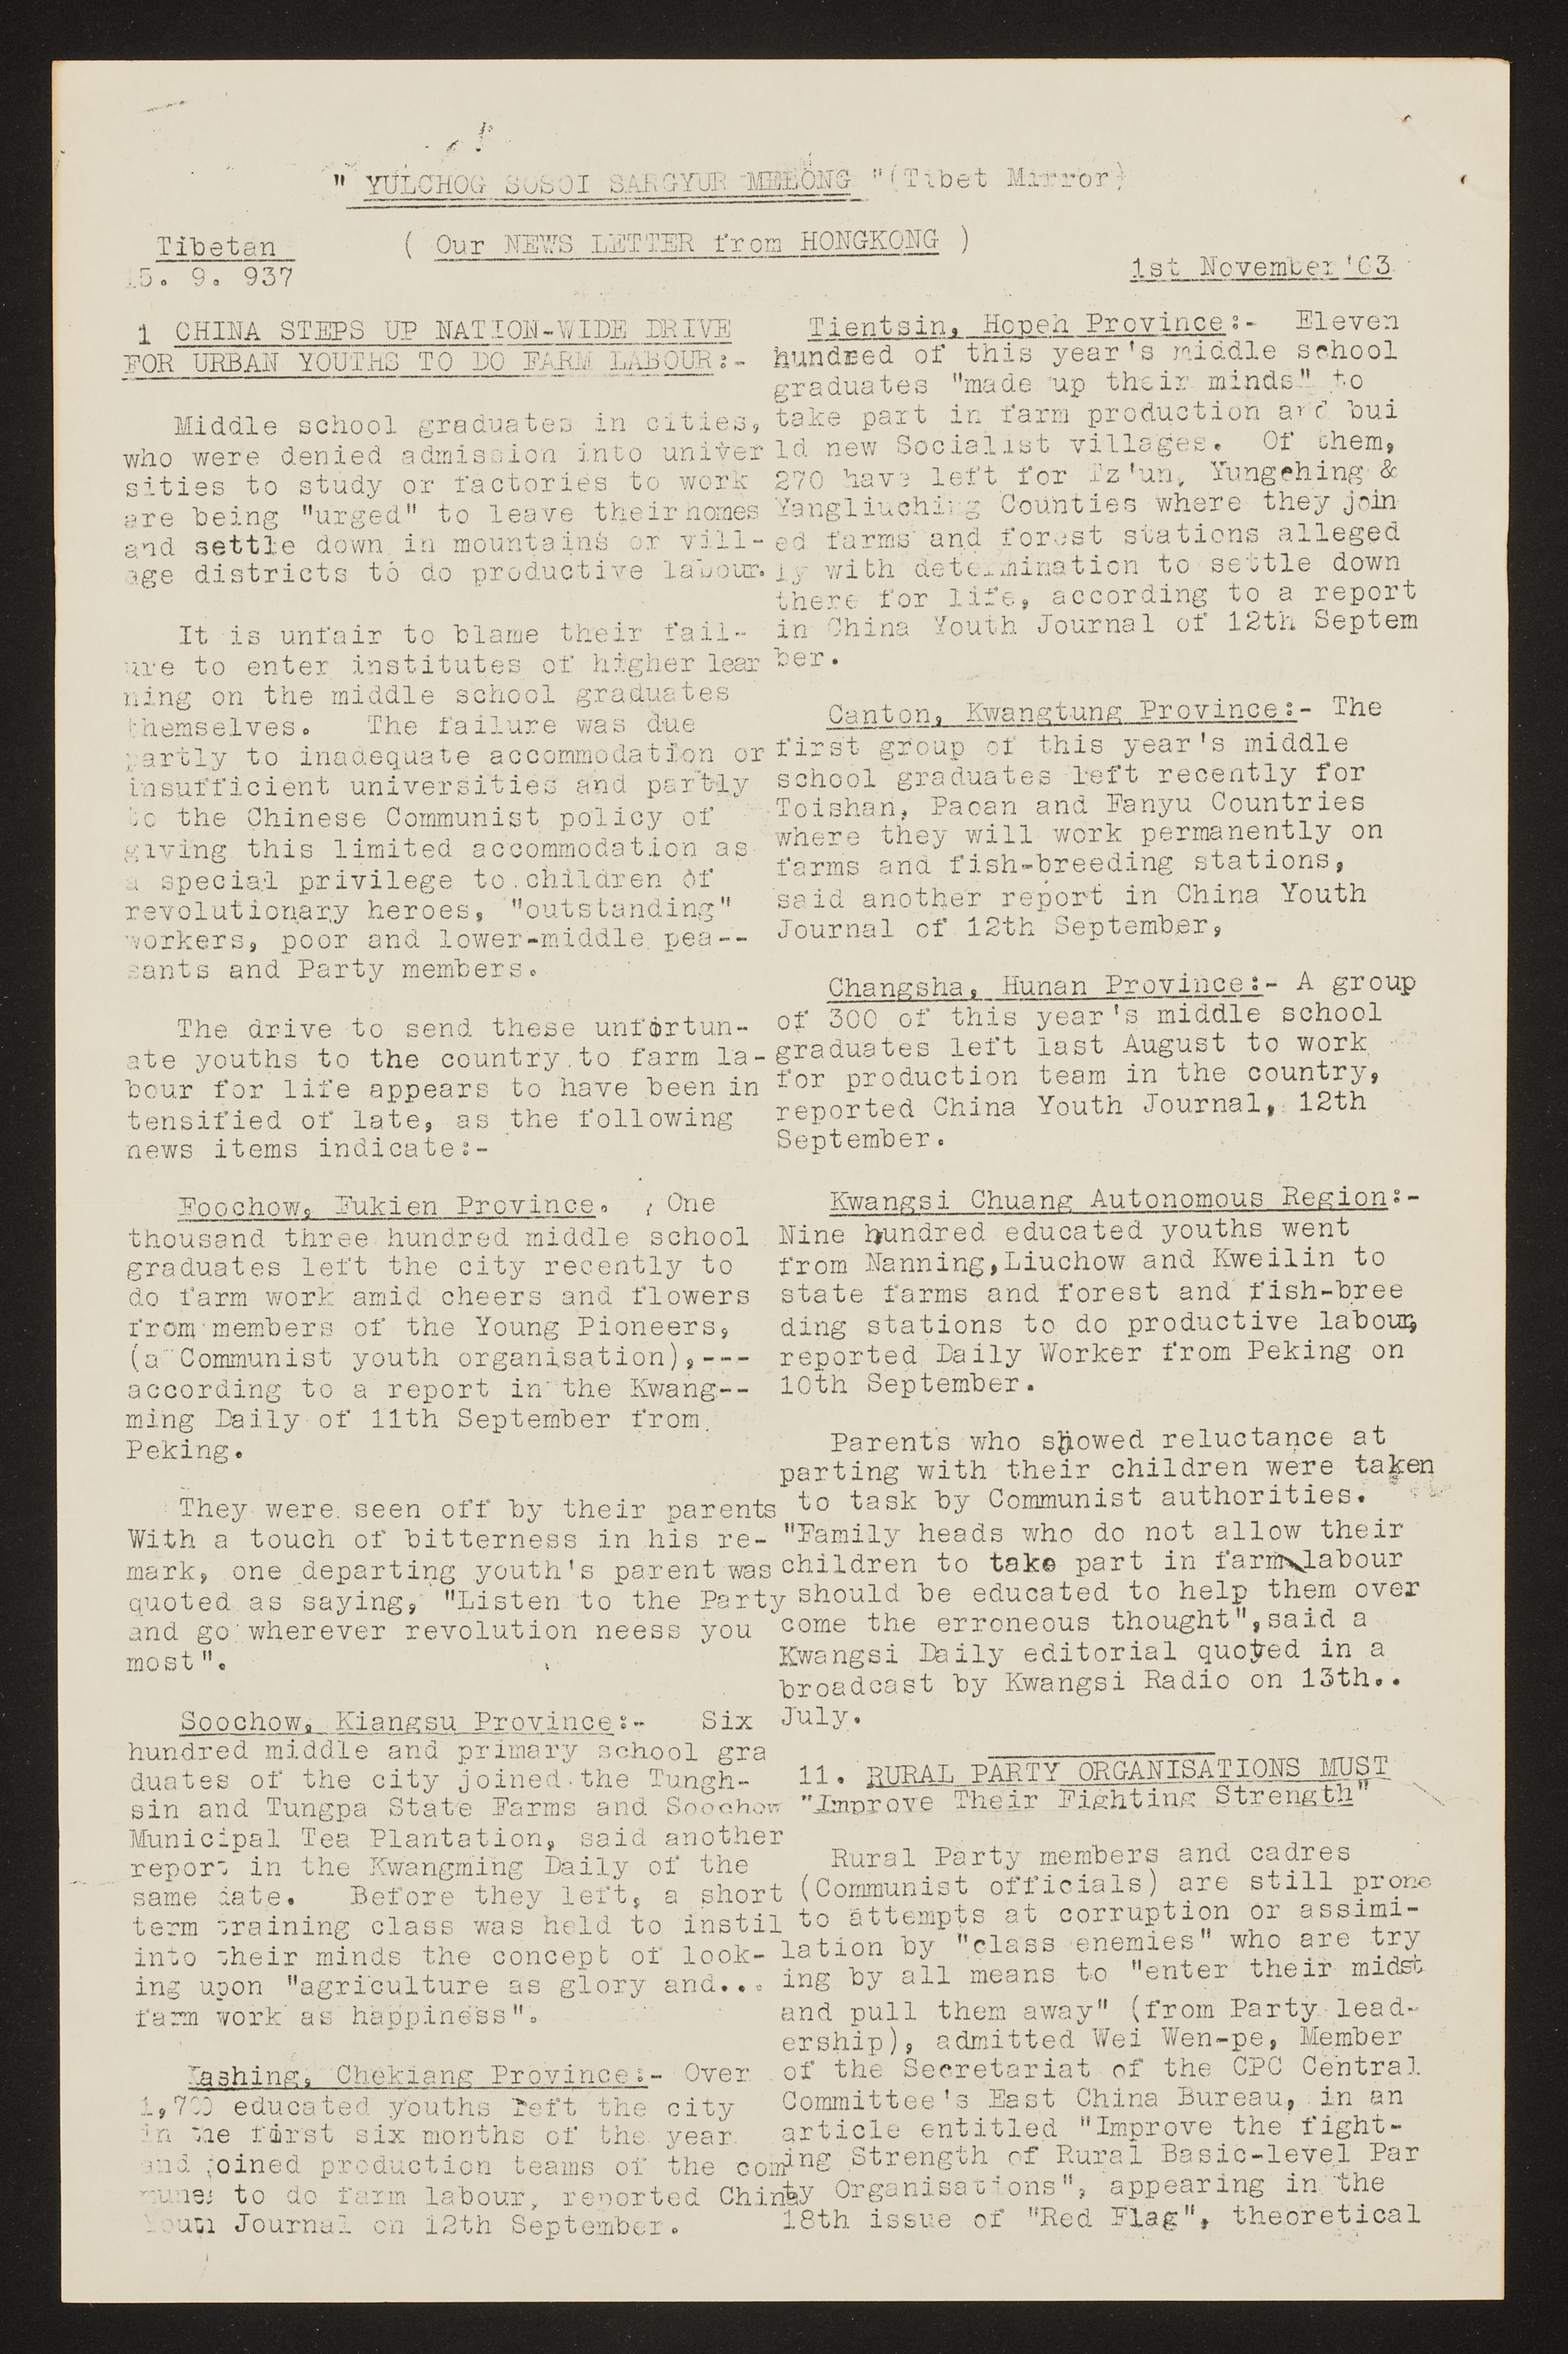" YULCHOG SOSOI SARGYUR MELONG " (Tibet Mirror)
Our NEWS LETTER from HONGKONG)
Tibetan
5.9. 937
1st November '63
1 CHINA STEPS UP NATION-WIDE DRIVE
FOR URBAN YOUTHS TO DO FARM LABOUR: -
Middle school graduates in cities,
who were denied admission into univer
sities to study or factories to work
are being "urged" to leave their homes
and settle down in mountains or vill-
age districts to do productive labour.
It is unfair to blame their fail-
we to enter institutes of higher lear
ning on the middle school graduates
themselves. The failure was due
partly to inadequate accommodation or
insufficient universities and partly
to the Chinese Communist policy of
giving this limited accommodation as
a special privilege to children of
revolutionary heroes, "outstanding"
workers, poor and lower middle pea--
sants and Party members.
The drive to send these unfortun-
ate youths to the country to farm la-
bour for life appears to have been in
tensified of late, as the following
news items indicate:-
Foochow, Fukien Province. One
thousand three hundred middle school
graduates left the city recently to
do farm work amid cheers and flowers
from members of the Young Pioneers,
(a Communist youth organisation), ---
according to a report in the Kwang--
ming Daily of 11th September from
Peking.
They were seen off by their parents
With a touch of bitterness in his re-
mark, one departing youth's parent was
quoted as saying, "Listen to the Party
and go wherever revolution neess you
most".
Soochow, Kiangsu Province:- Six
hundred middle and primary school gra
duates of the city joined the Tungh-
sin and Tungpa State Farms and Soochow
Municipal Tea Plantation, said another
report in the Kwangming Daily of the
same date. Before they left, a short
term training class was held to instil
into their minds the concept of look-
ing upon "agriculture as glory and...
farm work as happiness".
Xashing, Chekiang Province:- over
1,700 educated youths left the city
in the first six months of the year
and joined production teams of the com
munes to do farm labour, reported China
Youth Journal on 12th September.
Tientsin, Hopeh Province:- Eleven
hundred of this year's middle school
graduates "made up their minds" to
take part in farm production and bui
ld new Socialist villages. Of them,
270 have left for Tz'un, Yungching &
Yangliuching Counties where they join
ed farms and forest stations alleged
ly with determination to settle down
there for life, according to a report
in China Youth Journal of 12 Septem
ber.
Canton, Kwangtung Province: The
first group of this year's middle
school graduates left recently for
Toishan, Paoan and Fanyu Countries
where they will work permanently on
farms and fish-breeding stations,
said another report in China Youth
Journal of 12th September,
Changsha, Hunan Province - A group
of 300 of this years middle school
graduates left last August to work
for production team in the country,
reported China Youth Journal, 12th
September.
Kwangsi Chuang Autonomous Region:-
Nine hundred educated youths went
from Nanning, Liuchow and Kweilin to
state farms and forest and fish-bree
ding stations to do productive labour,
reported Daily Worker from Peking on
10th September.
Parents who showed reluctance at
parting with their children were taken
to task by Communist authorities.
"Family heads who do not allow their
children to take part in farm labour
should be educated to help them over
come the erroneous thought", said a
Kwangsi Daily editorial quoted in a
broadcast by Kwangs Radio on 13th..
July.
11. RURAL PARTY ORGANISATIONS MUST
"Improve Their Fighting Strength"
Rural Party members and cadres
(Communist officials) are still prone
to attempts at corruption or assimi-
lation by class enemies who are try
ing by all means to enter their midst
and pull them away (from Party lead-
ership), admitted Wei Wen-pe, Member
of the Secretariat of the CPC Central
Committee's East China Bureau, in an
article entitled "Improve the fight-
ning Strength of Rural Basic level Par
ty Organisations", appearing in the
18th issue of "Red Flag", theoretical
